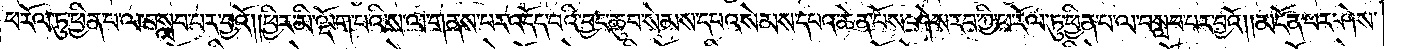ཕ་རོལ་ཏུ་ཕྱིན་པ་ལ་བསླབ་པར་བྱའོ། །ཕྱིར་མི་ལྡོག་པའི་ས་ལ་གནས་པར་འདོད་པའི་བྱང་ཆུབ་སེམས་དཔའ་སེམས་དཔའ་ཆེན་པོས་ཤེས་རབ་ཀྱི་ཕ་རོལ་ཏུ་ཕྱིན་པ་ལ་བསླབ་པར་བྱའོ། །མངོན་པར་ཤེས་
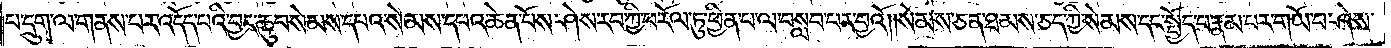པ་དྲུག་ལ་གནས་པར་འདོད་པའི་བྱང་ཆུབ་སེམས་དཔའ་སེམས་དཔའ་ཆེན་པོས་ཤེས་རབ་ཀྱི་ཕ་རོལ་ཏུ་ཕྱིན་པ་ལ་བསླབ་པར་བྱའོ། །སེམས་ཅན་ཐམས་ཅད་ཀྱི་སེམས་དང་སྤྱོད་པ་རྣམ་པར་གཡོ་བ་ཤེས་
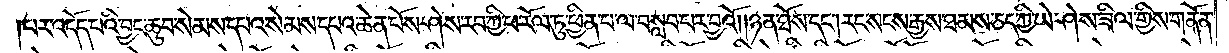པར་འདོད་པའི་བྱང་ཆུབ་སེམས་དཔའ་སེམས་དཔའ་ཆེན་པོས་ཤེས་རབ་ཀྱི་ཕ་རོལ་ཏུ་ཕྱིན་པ་ལ་བསླབ་པར་བྱའོ། །ཉན་ཐོས་དང༌། རང་སངས་རྒྱས་ཐམས་ཅད་ཀྱི་ཡེ་ཤེས་ཟིལ་གྱིས་གནོན་
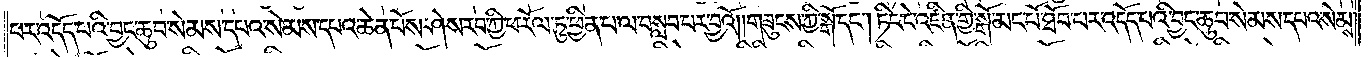པར་འདོད་པའི་བྱང་ཆུབ་སེམས་དཔའ་སེམས་དཔའ་ཆེན་པོས་ཤེས་རབ་ཀྱི་ཕ་རོལ་ཏུ་ཕྱིན་པ་ལ་བསླབ་པར་བྱའོ། །གཟུངས་ཀྱི་སྒོ་དང༌། ཏིང་ངེ་འཛིན་གྱི་སྒོ་མང་པོ་ཐོབ་པར་འདོད་པའི་བྱང་ཆུབ་སེམས་དཔའ་སེམས་
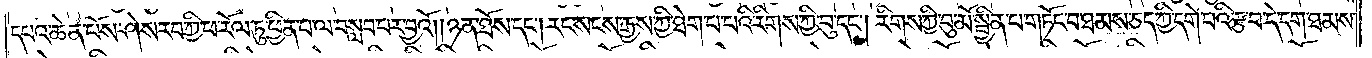དཔའ་ཆེན་པོས་ཤེས་རབ་ཀྱི་ཕ་རོལ་ཏུ་ཕྱིན་པ་ལ་བསླབ་པར་བྱའོ། །ཉན་ཐོས་དང༌། རང་སངས་རྒྱས་ཀྱི་ཐེག་པ་པའི་རིགས་ཀྱི་བུ་དང༌། རིགས་ཀྱི་བུ་མོ་སྦྱིན་པ་གཏོང་བ་ཐམས་ཅད་ཀྱི་དགེ་བའི་རྩ་བ་དེ་དག་ཐམས་
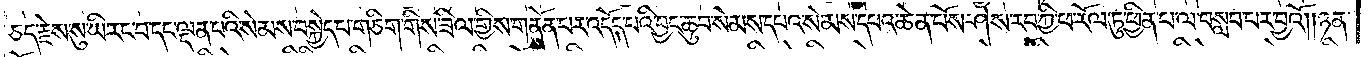ཅད་རྗེས་སུ་ཡི་རང་བ་དང་ལྡན་པའི་སེམས་བསྐྱེད་པ་གཅིག་གིས་ཟིལ་གྱིས་གནོན་པར་འདོད་པའི་བྱང་ཆུབ་སེམས་དཔའ་སེམས་དཔའ་ཆེན་པོས་ཤེས་རབ་ཀྱི་ཕ་རོལ་ཏུ་ཕྱིན་པ་ལ་བསླབ་པར་བྱའོ། །ཉན་
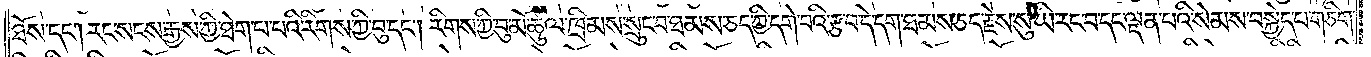ཐོས་དང༌། རང་སངས་རྒྱས་ཀྱི་ཐེག་པ་པའི་རིགས་ཀྱི་བུ་དང༌། རིགས་ཀྱི་བུ་མོ་ཚུལ་ཁྲིམས་སྲུང་བ་ཐམས་ཅད་ཀྱི་དགེ་བའི་རྩ་བ་དེ་དག་ཐམས་ཅད་རྗེས་སུ་ཡི་རང་བ་དང་ལྡན་པའི་སེམས་བསྐྱེད་པ་གཅིག་
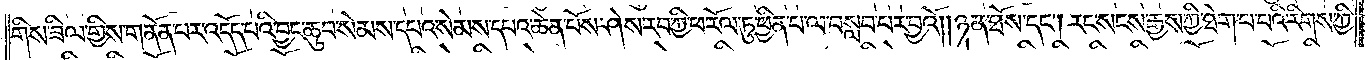གིས་ཟིལ་གྱིས་གནོན་པར་འདོད་པའི་བྱང་ཆུབ་སེམས་དཔའ་སེམས་དཔའ་ཆེན་པོས་ཤེས་རབ་ཀྱི་ཕ་རོལ་ཏུ་ཕྱིན་པ་ལ་བསླབ་པར་བྱའོ། །ཉན་ཐོས་དང༌། རང་སངས་རྒྱས་ཀྱི་ཐེག་པ་པའི་རིགས་ཀྱི་
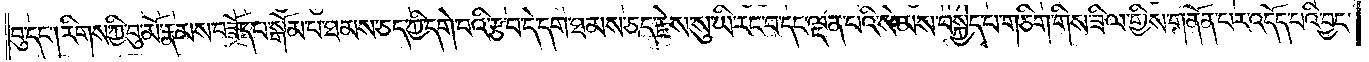བུ་དང༌། རིགས་ཀྱི་བུ་མོ་རྣམས་བཟོད་པ་སྒོམ་པ་ཐམས་ཅད་ཀྱི་དགེ་བའི་རྩ་བ་དེ་དག་ཐམས་ཅད་རྗེས་སུ་ཡི་རང་བ་དང་ལྡན་པའི་སེམས་བསྐྱེད་པ་གཅིག་གིས་ཟིལ་གྱིས་གནོན་པར་འདོད་པའི་བྱང་
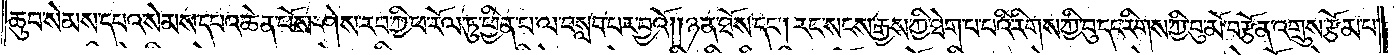ཆུབ་སེམས་དཔའ་སེམས་དཔའ་ཆེན་པོས་ཤེས་རབ་ཀྱི་ཕ་རོལ་ཏུ་ཕྱིན་པ་ལ་བསླབ་པར་བྱའོ། །ཉན་ཐོས་དང༌། རང་སངས་རྒྱས་ཀྱི་ཐེག་པ་པའི་རིགས་ཀྱི་བུ་དང་རིགས་ཀྱི་བུ་མོ་བརྩོན་འགྲུས་རྩོམ་པ་
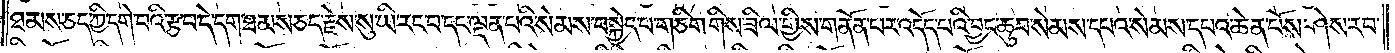ཐམས་ཅད་ཀྱི་དགེ་བའི་རྩ་བ་དེ་དག་ཐམས་ཅད་རྗེས་སུ་ཡི་རང་བ་དང་ལྡན་པའི་སེམས་བསྐྱེད་པ་གཅིག་གིས་ཟིལ་གྱིས་གནོན་པར་འདོད་པའི་བྱང་ཆུབ་སེམས་དཔའ་སེམས་དཔའ་ཆེན་པོས་ཤེས་རབ་
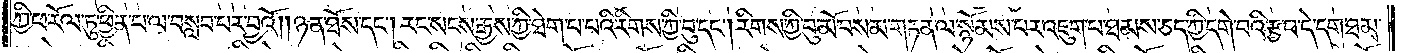ཀྱི་ཕ་རོལ་ཏུ་ཕྱིན་པ་ལ་བསླབ་པར་བྱའོ། །ཉན་ཐོས་དང༌། རང་སངས་རྒྱས་ཀྱི་ཐེག་པ་པའི་རིགས་ཀྱི་བུ་དང༌། རིགས་ཀྱི་བུ་མོ་བསམ་གཏན་ལ་སྙོམས་པར་འཇུག་པ་ཐམས་ཅད་ཀྱི་དགེ་བའི་རྩ་བ་དེ་དག་ཐམས་
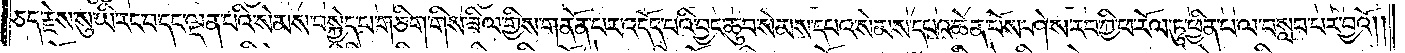ཅད་རྗེས་སུ་ཡི་རང་བ་དང་ལྡན་པའི་སེམས་བསྐྱེད་པ་གཅིག་གིས་ཟིལ་གྱིས་གནོན་པར་འདོད་པའི་བྱང་ཆུབ་སེམས་དཔའ་སེམས་དཔའ་ཆེན་པོས་ཤེས་རབ་ཀྱི་ཕ་རོལ་ཏུ་ཕྱིན་པ་ལ་བསླབ་པར་བྱའོ༎
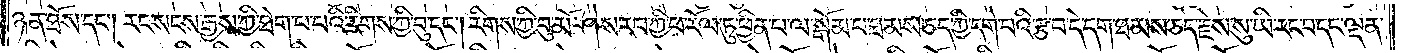ཉན་ཐོས་དང༌། རང་སངས་རྒྱས་ཀྱི་ཐེག་པ་པའི་རིགས་ཀྱི་བུ་དང༌། རིགས་ཀྱི་བུ་མོ་ཤེས་རབ་ཀྱི་ཕ་རོལ་ཏུ་ཕྱིན་པ་ལ་སྒོམ་པ་ཐམས་ཅད་ཀྱི་དགེ་བའི་རྩ་བ་དེ་དག་ཐམས་ཅད་རྗེས་སུ་ཡི་རང་བ་དང་ལྡན་
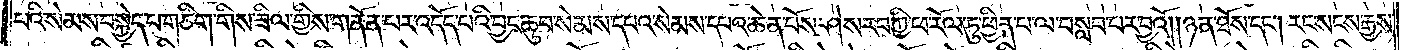པའི་སེམས་བསྐྱེད་པ་གཅིག་གིས་ཟིལ་གྱིས་གནོན་པར་འདོད་པའི་བྱང་ཆུབ་སེམས་དཔའ་སེམས་དཔའ་ཆེན་པོས་ཤེས་རབ་ཀྱི་ཕ་རོལ་ཏུ་ཕྱིན་པ་ལ་བསླབ་པར་བྱའོ། །ཉན་ཐོས་དང༌། རང་སངས་རྒྱས་
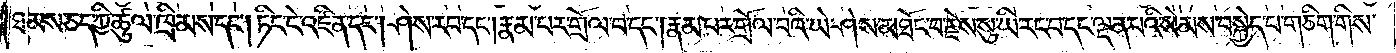ཐམས་ཅད་ཀྱི་ཚུལ་ཁྲིམས་དང༌། ཏིང་ངེ་འཛིན་དང༌། ཤེས་རབ་དང༌། རྣམ་པར་གྲོལ་བ་དང༌། རྣམ་པར་གྲོལ་བའི་ཡེ་ཤེས་མཐོང་བ་རྗེས་སུ་ཡི་རང་བ་དང་ལྡན་པའི་སེམས་བསྐྱེད་པ་གཅིག་གིས་
